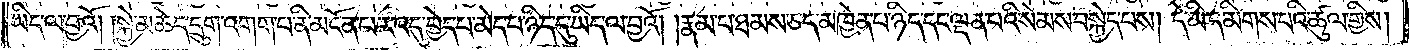ཡིད་ལ་བྱའོ། །སྐྱེ་མཆེད་དྲུག་འགག་པ་ནི་མངོན་པར་འདུ་བྱེད་པ་མེད་པ་ཉིད་དུ་ཡིད་ལ་བྱའོ། །རྣམ་པ་ཐམས་ཅད་མཁྱེན་པ་ཉིད་དང་ལྡན་པའི་སེམས་བསྐྱེད་པས། དེ་མི་དམིགས་པའི་ཚུལ་གྱིས།
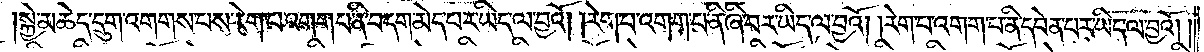སྐྱེ་མཆེད་དྲུག་འགགས་པས་རེག་པ་འགག་པ་ནི་བདག་མེད་པར་ཡིད་ལ་བྱའོ། །རེག་པ་འགག་པ་ནི་ཞི་བར་ཡིད་ལ་བྱའོ། །རེག་པ་འགག་པ་ནི་དབེན་པར་ཡིད་ལ་བྱའོ།
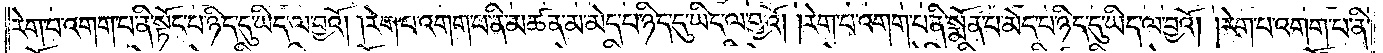རེག་པ་འགག་པ་ནི་སྟོང་པ་ཉིད་དུ་ཡིད་ལ་བྱའོ། །རེག་པ་འགག་པ་ནི་མཚན་མ་མེད་པ་ཉིད་དུ་ཡིད་ལ་བྱའོ། །རེག་པ་འགག་པ་ནི་སྨོན་པ་མེད་པ་ཉིད་དུ་ཡིད་ལ་བྱའོ། །རེག་པ་འགག་པ་ནི་
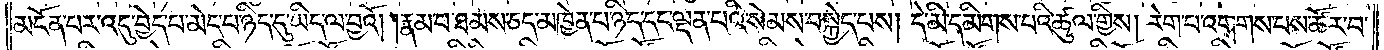མངོན་པར་འདུ་བྱེད་པ་མེད་པ་ཉིད་དུ་ཡིད་ལ་བྱའོ། །རྣམ་པ་ཐམས་ཅད་མཁྱེན་པ་ཉིད་དང་ལྡན་པའི་སེམས་བསྐྱེད་པས། དེ་མི་དམིགས་པའི་ཚུལ་གྱིས། རེག་པ་འགགས་པས་ཚོར་བ་
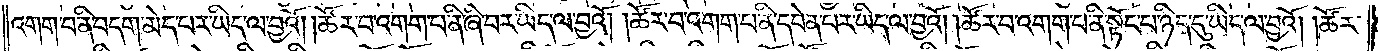འགག་པ་ནི་བདག་མེད་པར་ཡིད་ལ་བྱའོ། །ཚོར་བ་འགག་པ་ནི་ཞི་བར་ཡིད་ལ་བྱའོ། །ཚོར་བ་འགག་པ་ནི་དབེན་པར་ཡིད་ལ་བྱའོ། །ཚོར་བ་འགག་པ་ནི་སྟོང་པ་ཉིད་དུ་ཡིད་ལ་བྱའོ། །ཚོར་
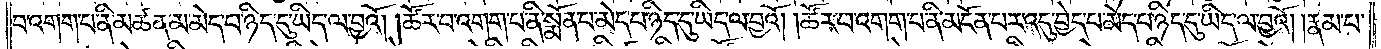བ་འགག་པ་ནི་མཚན་མ་མེད་པ་ཉིད་དུ་ཡིད་ལ་བྱའོ། །ཚོར་བ་འགག་པ་ནི་སྨོན་པ་མེད་པ་ཉིད་དུ་ཡིད་ལ་བྱའོ། །ཚོར་བ་འགག་པ་ནི་མངོན་པར་འདུ་བྱེད་པ་མེད་པ་ཉིད་དུ་ཡིད་ལ་བྱའོ། །རྣམ་པ་
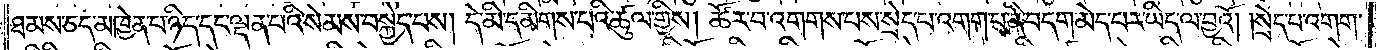ཐམས་ཅད་མཁྱེན་པ་ཉིད་དང་ལྡན་པའི་སེམས་བསྐྱེད་པས། དེ་མི་དམིགས་པའི་ཚུལ་གྱིས། ཚོར་བ་འགགས་པས་སྲེད་པ་འགག་པ་ནི་བདག་མེད་པར་ཡིད་ལ་བྱའོ། སྲེད་པ་འགག་
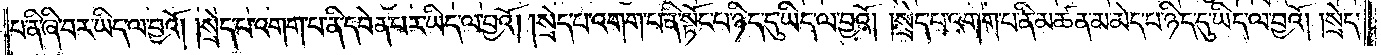པ་ནི་ཞི་བར་ཡིད་ལ་བྱའོ། །སྲེད་པ་འགག་པ་ནི་བདེན་པར་ཡིད་ལ་བྱའོ། །སྲེད་པ་འགག་པ་ནི་སྟོང་པ་ཉིད་དུ་ཡིད་ལ་བྱའོ། །སྲེད་པ་འགག་པ་ནི་མཚན་མ་མེད་པ་ཉིད་དུ་ཡིད་ལ་བྱའོ། །སྲེད་
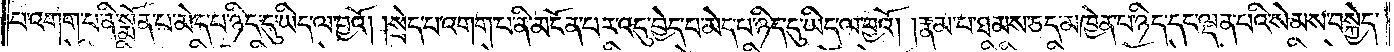པ་འགག་པ་ནི་སྨོན་པ་མེད་པ་ཉིད་དུ་ཡིད་ལ་བྱའོ། །སྲེད་པ་འགག་པ་ནི་མངོན་པར་འདུ་བྱེད་པ་མེད་པ་ཉིད་དུ་ཡིད་ལ་བྱའོ། རྣམ་པ་ཐམས་ཅད་མཁྱེན་པ་ཉིད་དང་ལྡན་པའི་སེམས་བསྐྱེད་
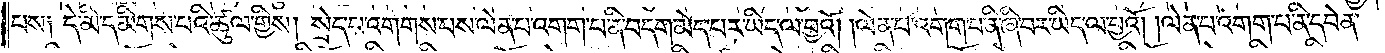པས༏ དེ་མི་དམིགས་པའི་ཚུལ་གྱིས། སྲེད་པ་འགགས་པས་ལེན་པ་འགག་པ་ནི་བདག་མེད་པར་ཡིད་ལ་བྱའོ། །ལེན་པ་འགག་པ་ནི་ཞི་བར་ཡིད་ལ་བྱའོ། །ལེན་པ་འགག་པ་ནི་དབེན་
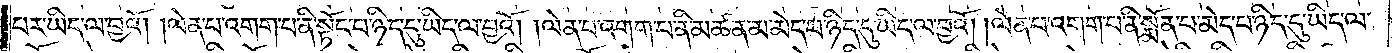པར་ཡིད་ལ་བྱའོ། །ལེན་པ་འགག་པ་ནི་སྟོང་པ་ཉིད་དུ་ཡིད་ལ་བྱའོ། །ལེན་པ་འགག་པ་ནི་མཚན་མ་མེད་པ་ཉིད་དུ་ཡིད་ལ་བྱའོ། །ལེན་པ་འགག་པ་ནི་སྨོན་པ་མེད་པ་ཉིད་དུ་ཡིད་ལ་
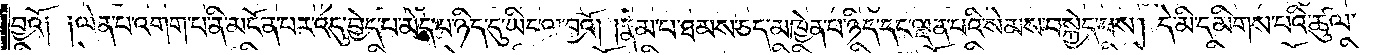བྱའོ༏ ༏ལེན་པ་འགག་པ་ནི་མངོན་པར་འདུ་བྱེད་པ་མེད་པ་ཉིད་དུ་ཡིད་ལ་བྱའོ། །རྣམ་པ་ཐམས་ཅད་མཁྱེན་པ་ཉིད་དང་ལྡན་པའི་སེམས་བསྐྱེད་པས། དེ་མི་དམིགས་པའི་ཚུལ་
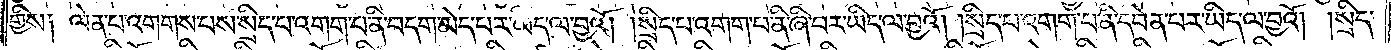གྱིས༏ ལེན་པ་འགགས་པས་སྲིད་པ་འགག་པ་ནི་བདག་མེད་པར་ཡིད་བྱའོ། །སྲིད་པ་འགག་པ་ནི་ཞི་བར་ཡིད་ལ་བྱའོ། །སྲིད་པ་འགག་པ་ནི་དབེན་པར་ཡིད་ལ་བྱའོ། །སྲིད་
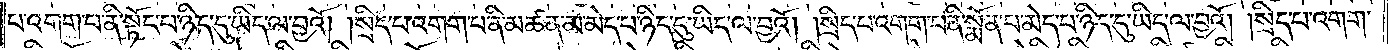པ་འགག་པ་ནི་སྟོང་པ་ཉིད་དུ་ཡིད་ལ་བྱའོ། །སྲིད་པ་འགག་པ་ནི་མཚན་མ་མེད་པ་ཉིད་དུ་ཡིད་ལ་བྱའོ། །སྲིད་པ་འགག་པ་ནི་སྨོན་པ་མེད་པ་ཉིད་དུ་ཡིད་ལ་བྱའོ། །སྲིད་པ་འགག་
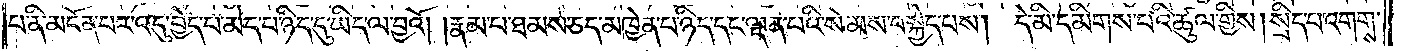པ་ནི་མངོན་པར་འདུ་བྱེད་པ་མེད་པ་ཉིད་དུ་ཡིད་ལ་བྱའོ། །རྣམ་པ་ཐམས་ཅད་མཁྱེན་པ་ཉིད་དང་ལྡན་པའི་སེམས་བསྐྱེད་པས། དེ་མི་དམིགས་པའི་ཚུལ་གྱིས། སྲིད་པ་འགགས་
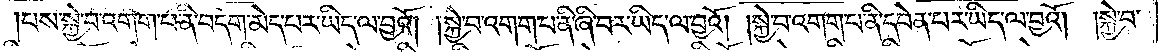པས་སྐྱེ་བ་འགག་པ་ནི་བདག་མེད་པར་ཡིད་ལ་བྱའོ། །སྐྱེ་བ་འགག་པ་ནི་ཞི་བར་ཡིད་ལ་བྱའོ། །སྐྱེ་བ་འགག་པ་ནི་དབེན་པར་ཡིད་ལ་བྱའོ། །སྐྱེ་བ་
